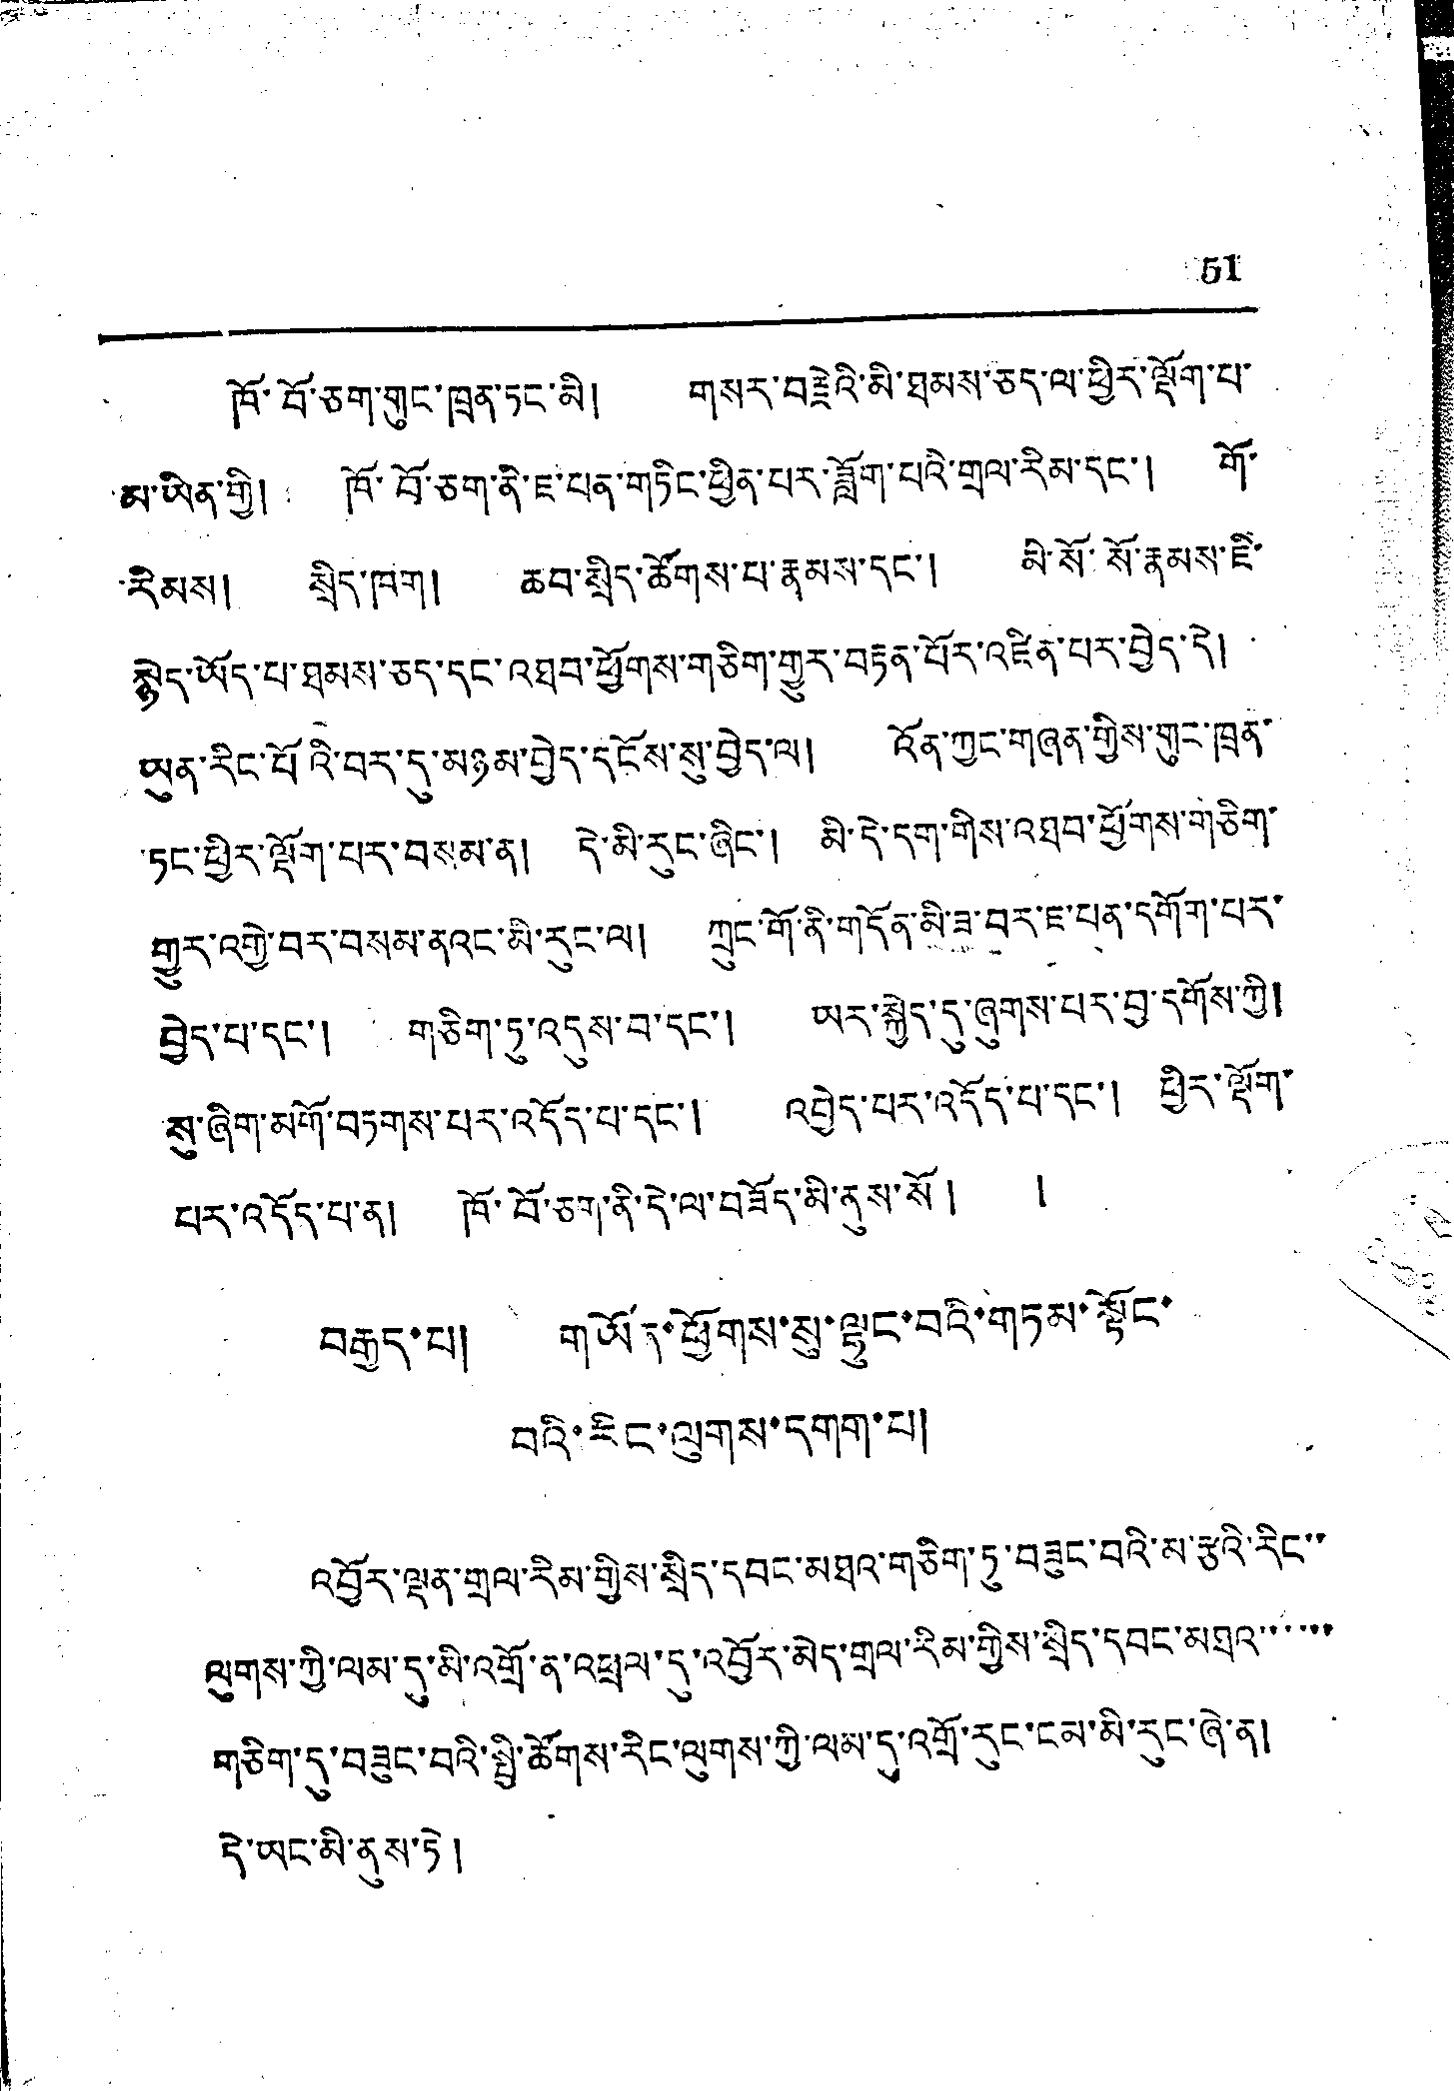51
ཁོ་བོ་ཅག་གུང་ཁྲན་ཏང་མི། གསར་བརྗེའི་མི་ཐམས་ཅད་ལ་ཕྱིར་ལྡོག་པ་
མ་ཡིན་གྱི། ཁོ་བོ་ཅག་ནི་ཇ་པན་གཏིང་ཕྱིན་པར་ཟློག་པའི་གྲལ་རིམ་དང་། གོ་
རིམས། སྲིད་ཁག། ཆབ་སྲིད་ཚོགས་པ་རྣམས་དང་། མི་སོ་སོ་རྣམས་ཇི་
སྙེད་ཡོད་པ་ཐམས་ཅད་དང་འཐབ་ཕྱོགས་གཅིག་གྱུར་བརྟན་པོར་འཛིན་པར་བྱེད་དེ།
ཡུན་རིང་པོའི་བར་དུ་མཉམ་བྱེད་དངོས་སུ་བྱེད་ལ། འོན་ཀྱང་གཞན་གྱིས་གུང་ཁྲན་
ཏང་ཕྱིར་ལྡོག་པར་བསམ་ན། དེ་མི་རུང་ཞིང་། མི་དེ་དག་གིས་འཐབ་ཕྱོགས་གཅིག་
གྱུར་འགྱི་བར་བསམ་ནའང་མི་རུང་ལ། ཀྲུང་གོ་ནི་གདོན་མི་ཟ་བར་ཇ་པན་དགོག་པར་
བྱེད་པ་དང་། གཅིག་ཏུ་འདུས་བ་དང་། ཡར་སྐྱེད་དུ་ཞུགས་པར་བྱ་དགོས་ཀྱི།
སུ་ཞིག་མགོ་བཏགས་པར་འདོད་པ་དང་། འབྱེད་པར་འདོད་པ་དང་། ཕྱིར་ལྡོག་
པར་འདོད་པ་ན། ཁོ་བོ་ཅག་ནི་དེ་ལ་བཟོད་མི་ནུས་སོ། །
བརྒྱད་པ། གཡོན་ཕྱོགས་སུ་ལྟུང་བའི་གཏམ་སྟོང་
བའི་རིང་ལུགས་དགག་པ།
འབྱོར་ལྡན་གྲལ་རིམ་གྱིས་སྲིད་དབང་མཐའ་གཅིག་ཏུ་བཟུང་བའི་མ་རྩའི་རིང་
ལུགས་ཀྱི་ལམ་དུ་མི་འགྲོ་ན་འཕྲལ་དུ་འབྱོར་མེད་གྲལ་རིམ་གྱིས་སྲིད་དབང་མཐའ་་་་་་
གཅིག་དུ་བཟུང་བའི་སྤྱི་ཚོགས་རིང་ལུགས་ཀྱི་ལམ་དུ་འགྲོ་རུང་ངམ་མི་རུང་ཞེ་ན། །
དེ་ཡང་མི་ནུས་ཏེ །
